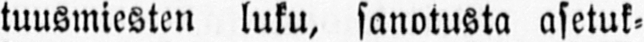tuusmiesten luku, sanotusta asetuk-
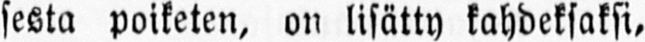sesta poiketen, on lisätty kahdeksaksi,
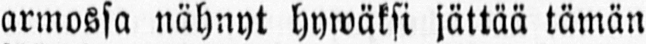armossa nähnyt hywäksi jättää tämän
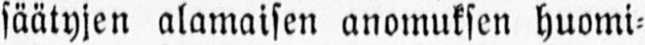säätyjen alamaisen anomuksen huomi-
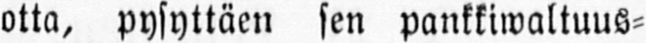otta, pysyttäen sen pankkiwaltuus-
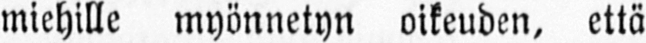miehille myönnetyn oikeuden, että
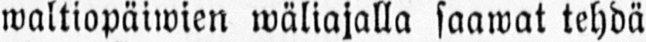waltiopäiwien wäliajalla saawat tehdä
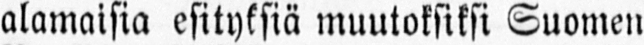alamaisia esityksiä muutoksiksi Suomen
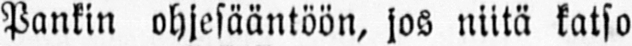Pankin ohjesääntöön, jos niitä katso
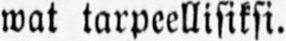wat tarpeellisiksi.
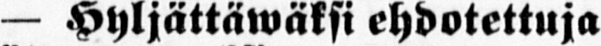— Hyljättäwäksi ehdotettuja
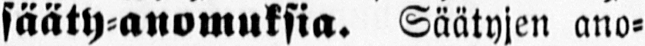sääty-anomuksia. Säätyjen ano-
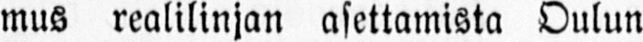mus realilinjan asettamista Oulun
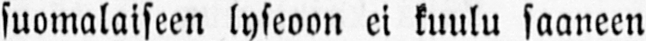suomalaiseen lyseoon ei kuulu saaneen
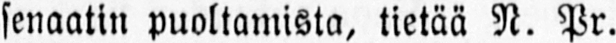senaatin puoltamista, tietää N. Pr.
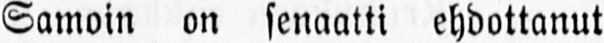Samoin on senaatti ehdottanut
